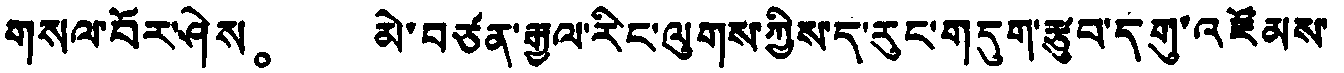གསལ་བོར་ཤེས。 མེ་བཙན་རྒྱལ་རིང་ལུགས་ཀྱིས་ད་རུང་གདུག་རྩུབ་དགུ་འཛོམས་
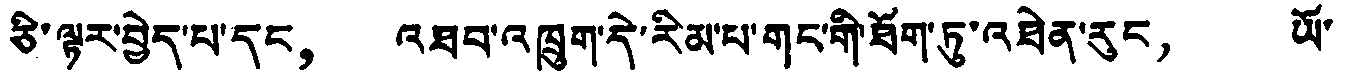ཅི་ལྟར་བྱེད་པ་དང， འཐབ་འཁྲུག་དེ་རིམ་པ་གང་གི་ཐོག་ཏུ་འཐེན་རུང， ཡོ་
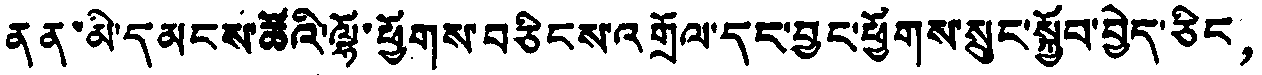ནན་མི་དམངས་ཚོའི་ལྷོ་ཕྱོགས་བཅིངས་འགྲོལ་དང་བྱང་ཕྱོགས་སྲུང་སྐྱོབ་བྱེད་ཅིང，
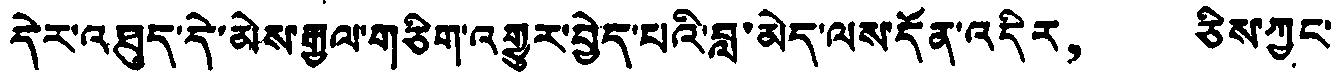དེར་འཐུད་དེ་མེས་རྒྱལ་གཅིག་འགྱུར་བྱེད་པའི་བླ་མེད་ལས་དོན་འདིར， ཅིས་ཀྱང་
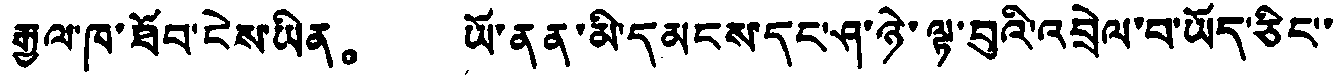རྒྱལ་ཁ་ཐོབ་ངེས་ཡིན。 ཡོ་ནན་མི་དམངས་དང་ཤ་ཉེ་ལྟ་བུའི་འབྲེལ་བ་ཡོད་ཅིང་
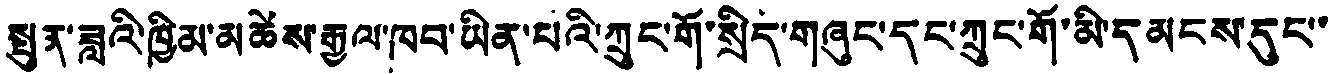སྤུན་ཟླའི་ཁྱིམ་མཚེས་རྒྱལ་ཁབ་ཡིན་པའི་ཀྲུང་གོ་སྲིད་གཞུང་དང་ཀྲུང་གོ་མི་དམངས་དུང་
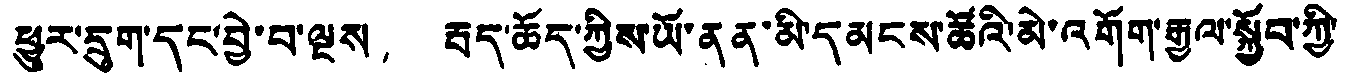ཕྱུར་དྲུག་དང་བྱེ་བ་ལྔས， རྦད་ཆོད་ཀྱིས་ཡོ་ནན་མི་དམངས་ཚོའི་མེ་འགོག་རྒྱལ་སྐྱོབ་ཀྱི་
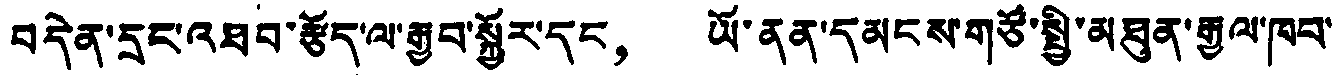བདེན་དྲང་འཐབ་རྩོད་ལ་རྒྱབ་སྐྱོར་དང， ཡོ་ནན་དམངས་གཙོ་སྤྱི་མཐུན་རྒྱལ་ཁབ་
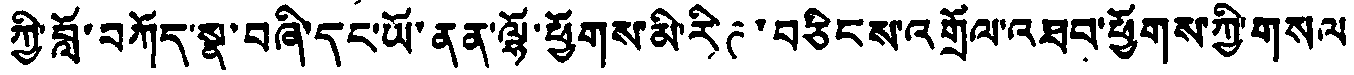ཀྱི་བློ་བཀོད་སྣ་བཞི་དང་ཡོ་ནན་ལྷོ་ཕྱོགས་མི་རིཊ་བཅིངས་འགྲོལ་འཐབ་ཕྱོགས་ཀྱི་གསལ
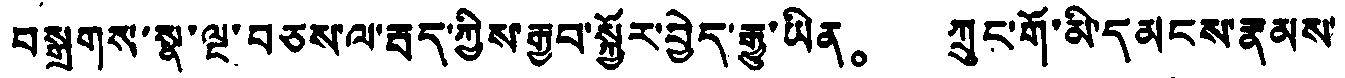བསྒྲགས་སྣ་ལྔ་བཅས་ལ་རྦད་ཀྱིས་རྒྱབ་སྐྱོར་བྱེད་རྒྱུ་ཡིན。 ཀྲུང་གོ་མི་དམངས་རྣམས་
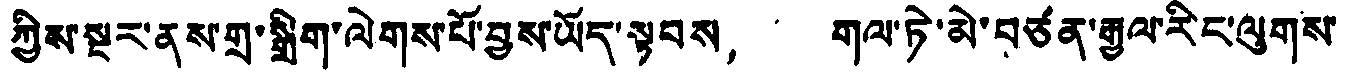ཀྱིས་སྔར་ནས་གྲ་སྒྲིག་ལེགས་པོ་བྱས་ཡོད་སྟབས， གལ་ཏེ་མེ་བཙན་རྒྱལ་རིང་ལུགས་
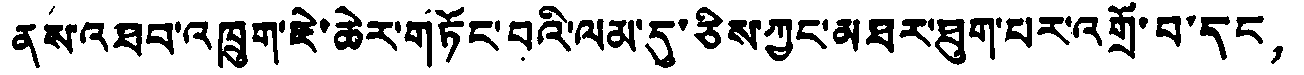ནས་འཐབ་འཁྲུག་རེ་ཆེར་གཏོང་བའི་ལམ་དུ་ཅིས་ཀྱང་མཐར་ཐུག་པར་འགྲོ་བ་དང，
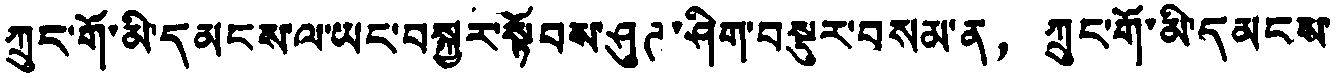ཀྲུང་གོ་མི་དམངས་ལ་ཡང་བསྐྱར་སྟོབས་ཤུཊ་ཤིག་བསྡུར་བསམ་ན， ཀྲུང་གོ་མི་དམངས་
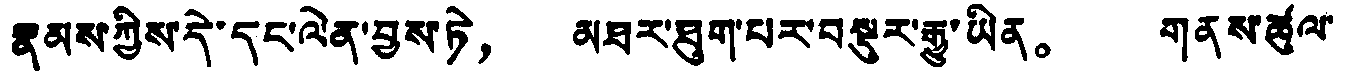རྣམས་ཀྱིས་དེ་དང་ལེན་བྱས་ཏེ， མཐར་ཐུག་པར་བསྡུར་རྒྱུ་ཡིན。 གནས་ཚུལ་
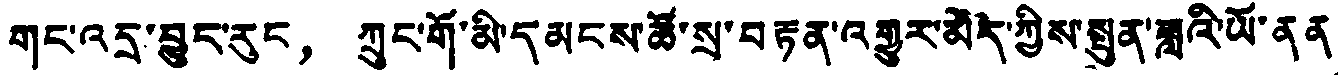གང་འདྲ་བྱུང་རུང， ཀྲུང་གོ་མི་དམངས་ཚོ་སྲ་བརྟན་འགྱུར་མེད་ཀྱིས་སྤུན་ཟླའི་ཡོ་ནན་
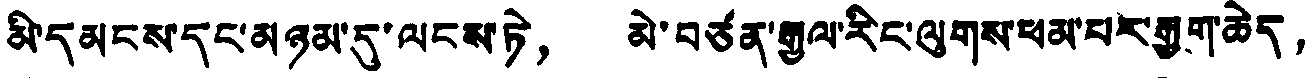མི་དམངས་དང་མཉམ་དུ་ལངས་ཏེ， མེ་བཙན་རྒྱལ་རིང་ལུགས་ཕམ་པར་རྒྱག་ཆེད，
